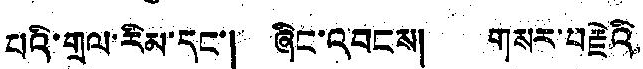པའི་གྲལ་རིམ་དང་། ཞིང་འབངས། གསར་བརྗེའི
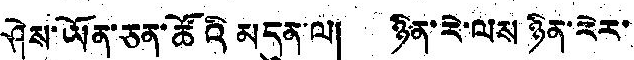ཤེས་ཡོན་ཅན་ཚོའི མདུན་ལ། ཉིན་རེ་ལས ཉིན་རེར་
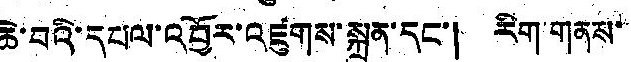ཆེ་བའི་དཔལ་འབྱོར་འཛུགས་སྐྲུན་དང་། རིག གནས་
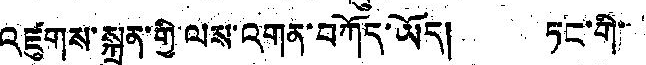འཛུགས་སྐྲུན་གྱི་ལས་འགན་བཀོད་ཡོད། རང་གི་
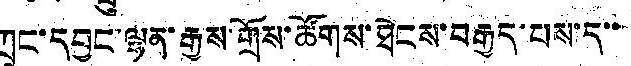ཀྲུང་དབྱང་ལྷན་རྒྱས་གྲོས་ཚོགས་ཐེངས་བརྒྱད་པས་ད་་
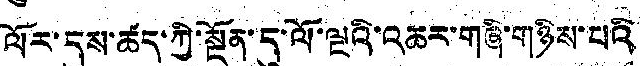ལོར་དུས་ཚད་ཀྱི་སྔོན་དུ་ལོ་ལྔའི་འཆར་གཞི་གཉིས་པའི
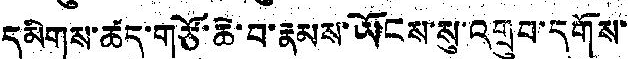དམིགས་ཚད་གཙོ་ཆེ་བ་རྣམས་ཡོངས་སུ་འགྲུབ་དགོས་
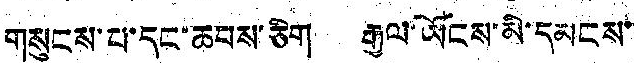གསུངས་པ་དང་ཆབས་ཅིག རྒྱལ་ཡོངས་མི་དམངས་
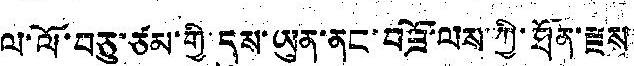ལ་ལོ་བཅུ་ཙམ་གྱི་དུས་ཡུན་ནང་བཟོ་ལས་ཀྱི་ཐོན་རྫས
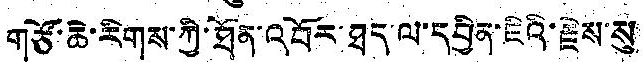གཙོ་ཆེ་རིགས་ཀྱི་ཐོན་འབོར་ཐད་ལ་དབྱིན་ཇིའི་རྗེས་སུ
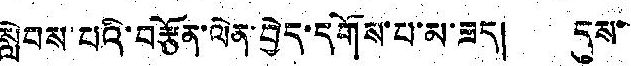སླེབས་པའི་བརྩོན་ལེན་བྱེད་དགོས་པ་མ་ཟད། དུས་
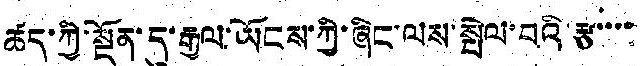ཚད་ཀྱི་སྔོན་དུ་རྒྱལ་ཡོངས་ཀྱི་ཞིང་ལས་སྤེལ་བའི་རྩ་་་་
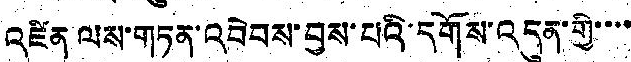འཛིན ལས་གཏན་འབེབས་བྱས་པའི་དགོས་འདུན་གྱི་་་་
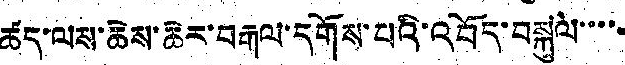ཚད་ལས་ཆེས་ཆེར་བརྒལ་དགོས་པའི་འབོད་བསྐུལ་་་་
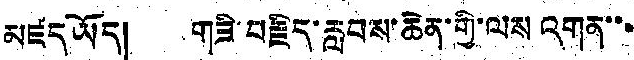མཛད ཡོད། གཟི་བརྗིད་རླབས་ཆེན་གྱི་ལས འགན་་
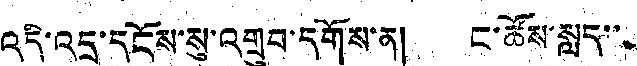འདི་འདྲ་དངོས་སུ་འགྲུབ་དགོས་ན། ང་ཚོས་སླད་་
